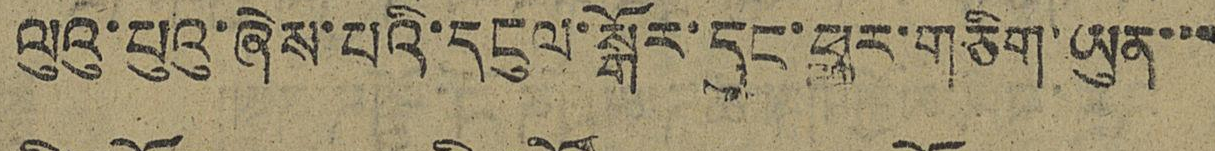ལུའུ་པུའུ་ཞེས་པའི་དངུལ་སྒོར་དང་ཕར་གཅིག་ཡུན་་་
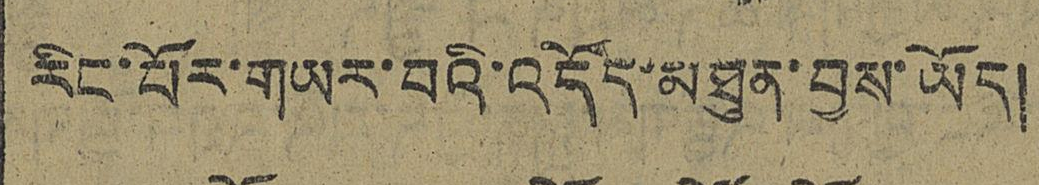རིང་པོར་གཡར་བའི་འདོད་མཐུན་བྱས་ཡོད།
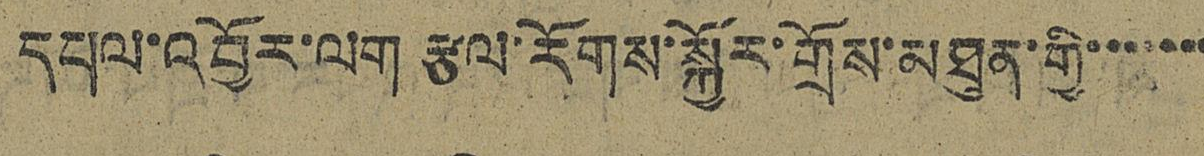དཔལ་འབྱོར་ལག རྩལ་རོགས་སྐྱོར་གྲོས་མཐུན་གྱི་་་་་་
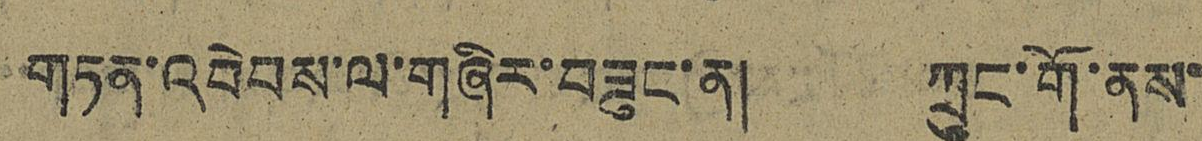གཏན་འབེབས་ལ་གཞིར་བཟུང་ན། ཀྲུང་གོ་ནས་
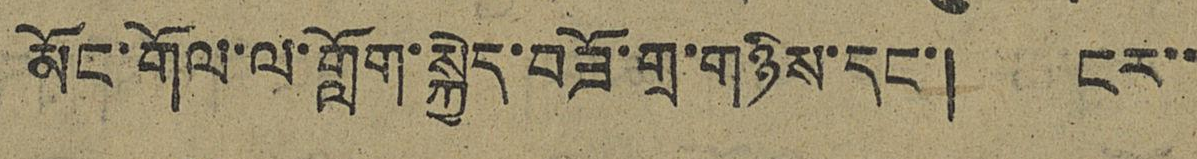མོང་གོལ་ལ་གློག་སྐྱེད་བཟོ་གྲ་གཉིས་དང་། ངར་
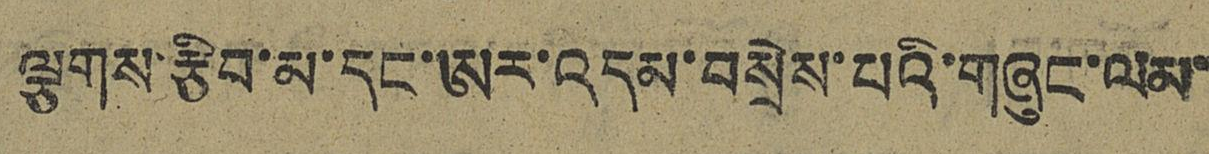ལྕགས་རྩིབ་མ་དང་ཨར་འདམ་བསྲེས་པའི་གཞུང་ལམ་
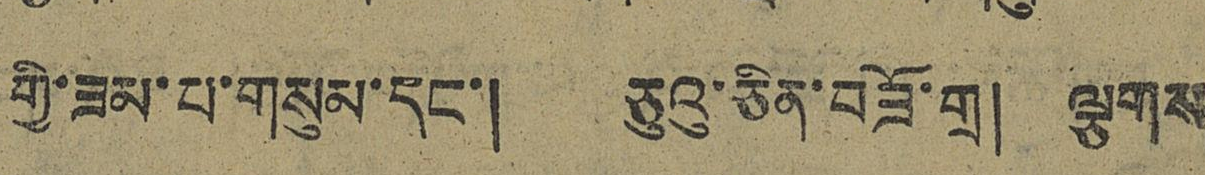གྱི་ཟམ་པ་གསུམ་དང་། ཅུའུ་ཅིན་བཟོ་གྲ། ལྕགས
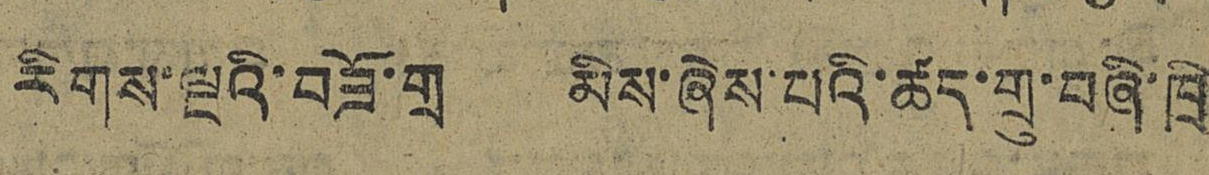རིགས་ལྔའི་བཟོ་གྲ མིས་ཞེས་པའི་ཚད་གྲུ་བཞི་ཁྲི
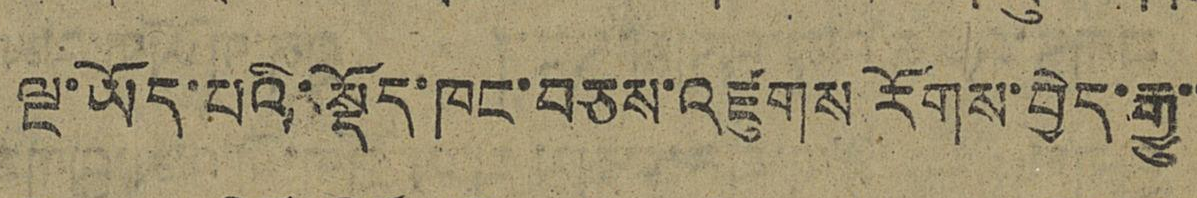ལྔ་ཡོད་པའི་སྡོད་ཁང་བཅས་འཛུགས་རོགས་བྱེད་རྒྱུ་
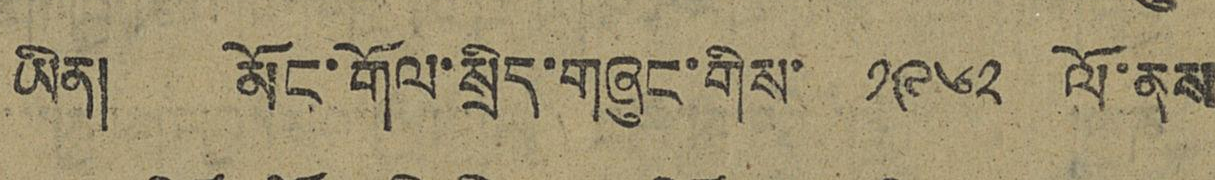ཡིན། མོང་གོལ་སྲིད་གཞུང་གིས་ ༡༩༦༢ ལོ་ནས
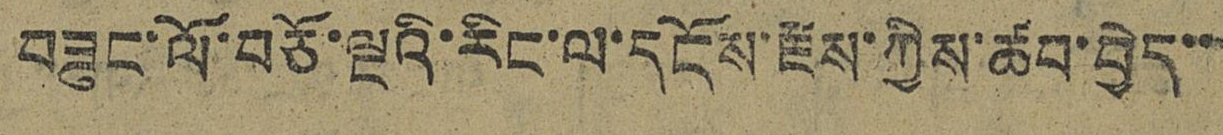བཟུང་ལོ་བཅོ་ལྔའི་རིང་ལ་དངོས་རྫས་ཀྱིས་ཚབ་བྱེད་
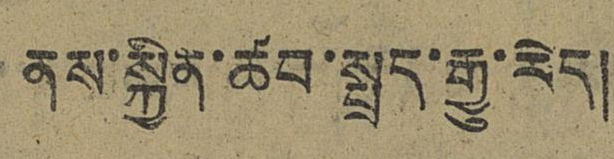ནས་སྐྱིན་ཚབ་སྤྲད་རྒྱུ་རེད།
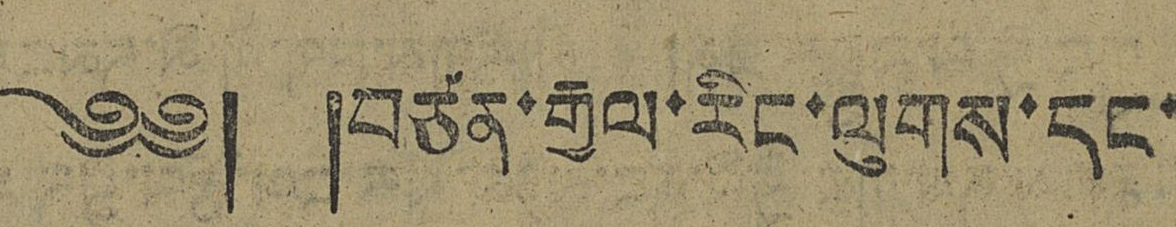༄༅། །བཙན་རྒྱལ་རིང་ལུགས་དང་
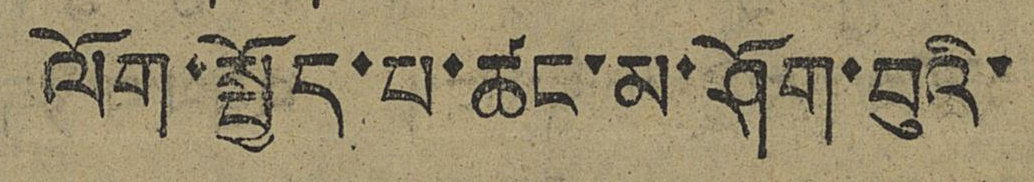ལོག་སྤྱོད་པ་ཚང་མ་ཤོག་བུའི་
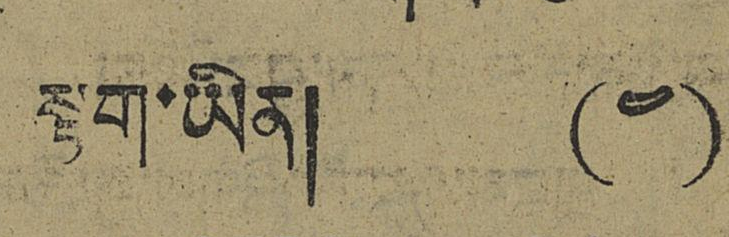སྟག་ཡིན། (༤)
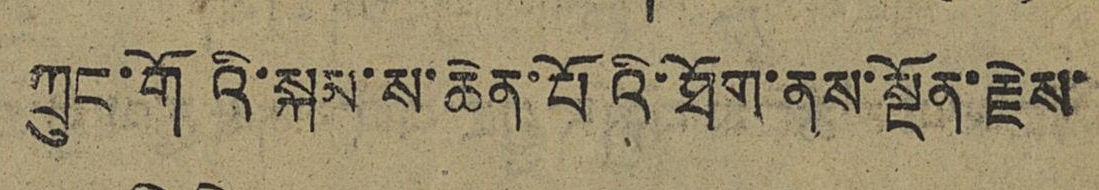ཀྲུང་གོའི་སྐམ་ས་ཆེན་པོའི་ཐོག་ནས་སྔོན་རྗེས་
